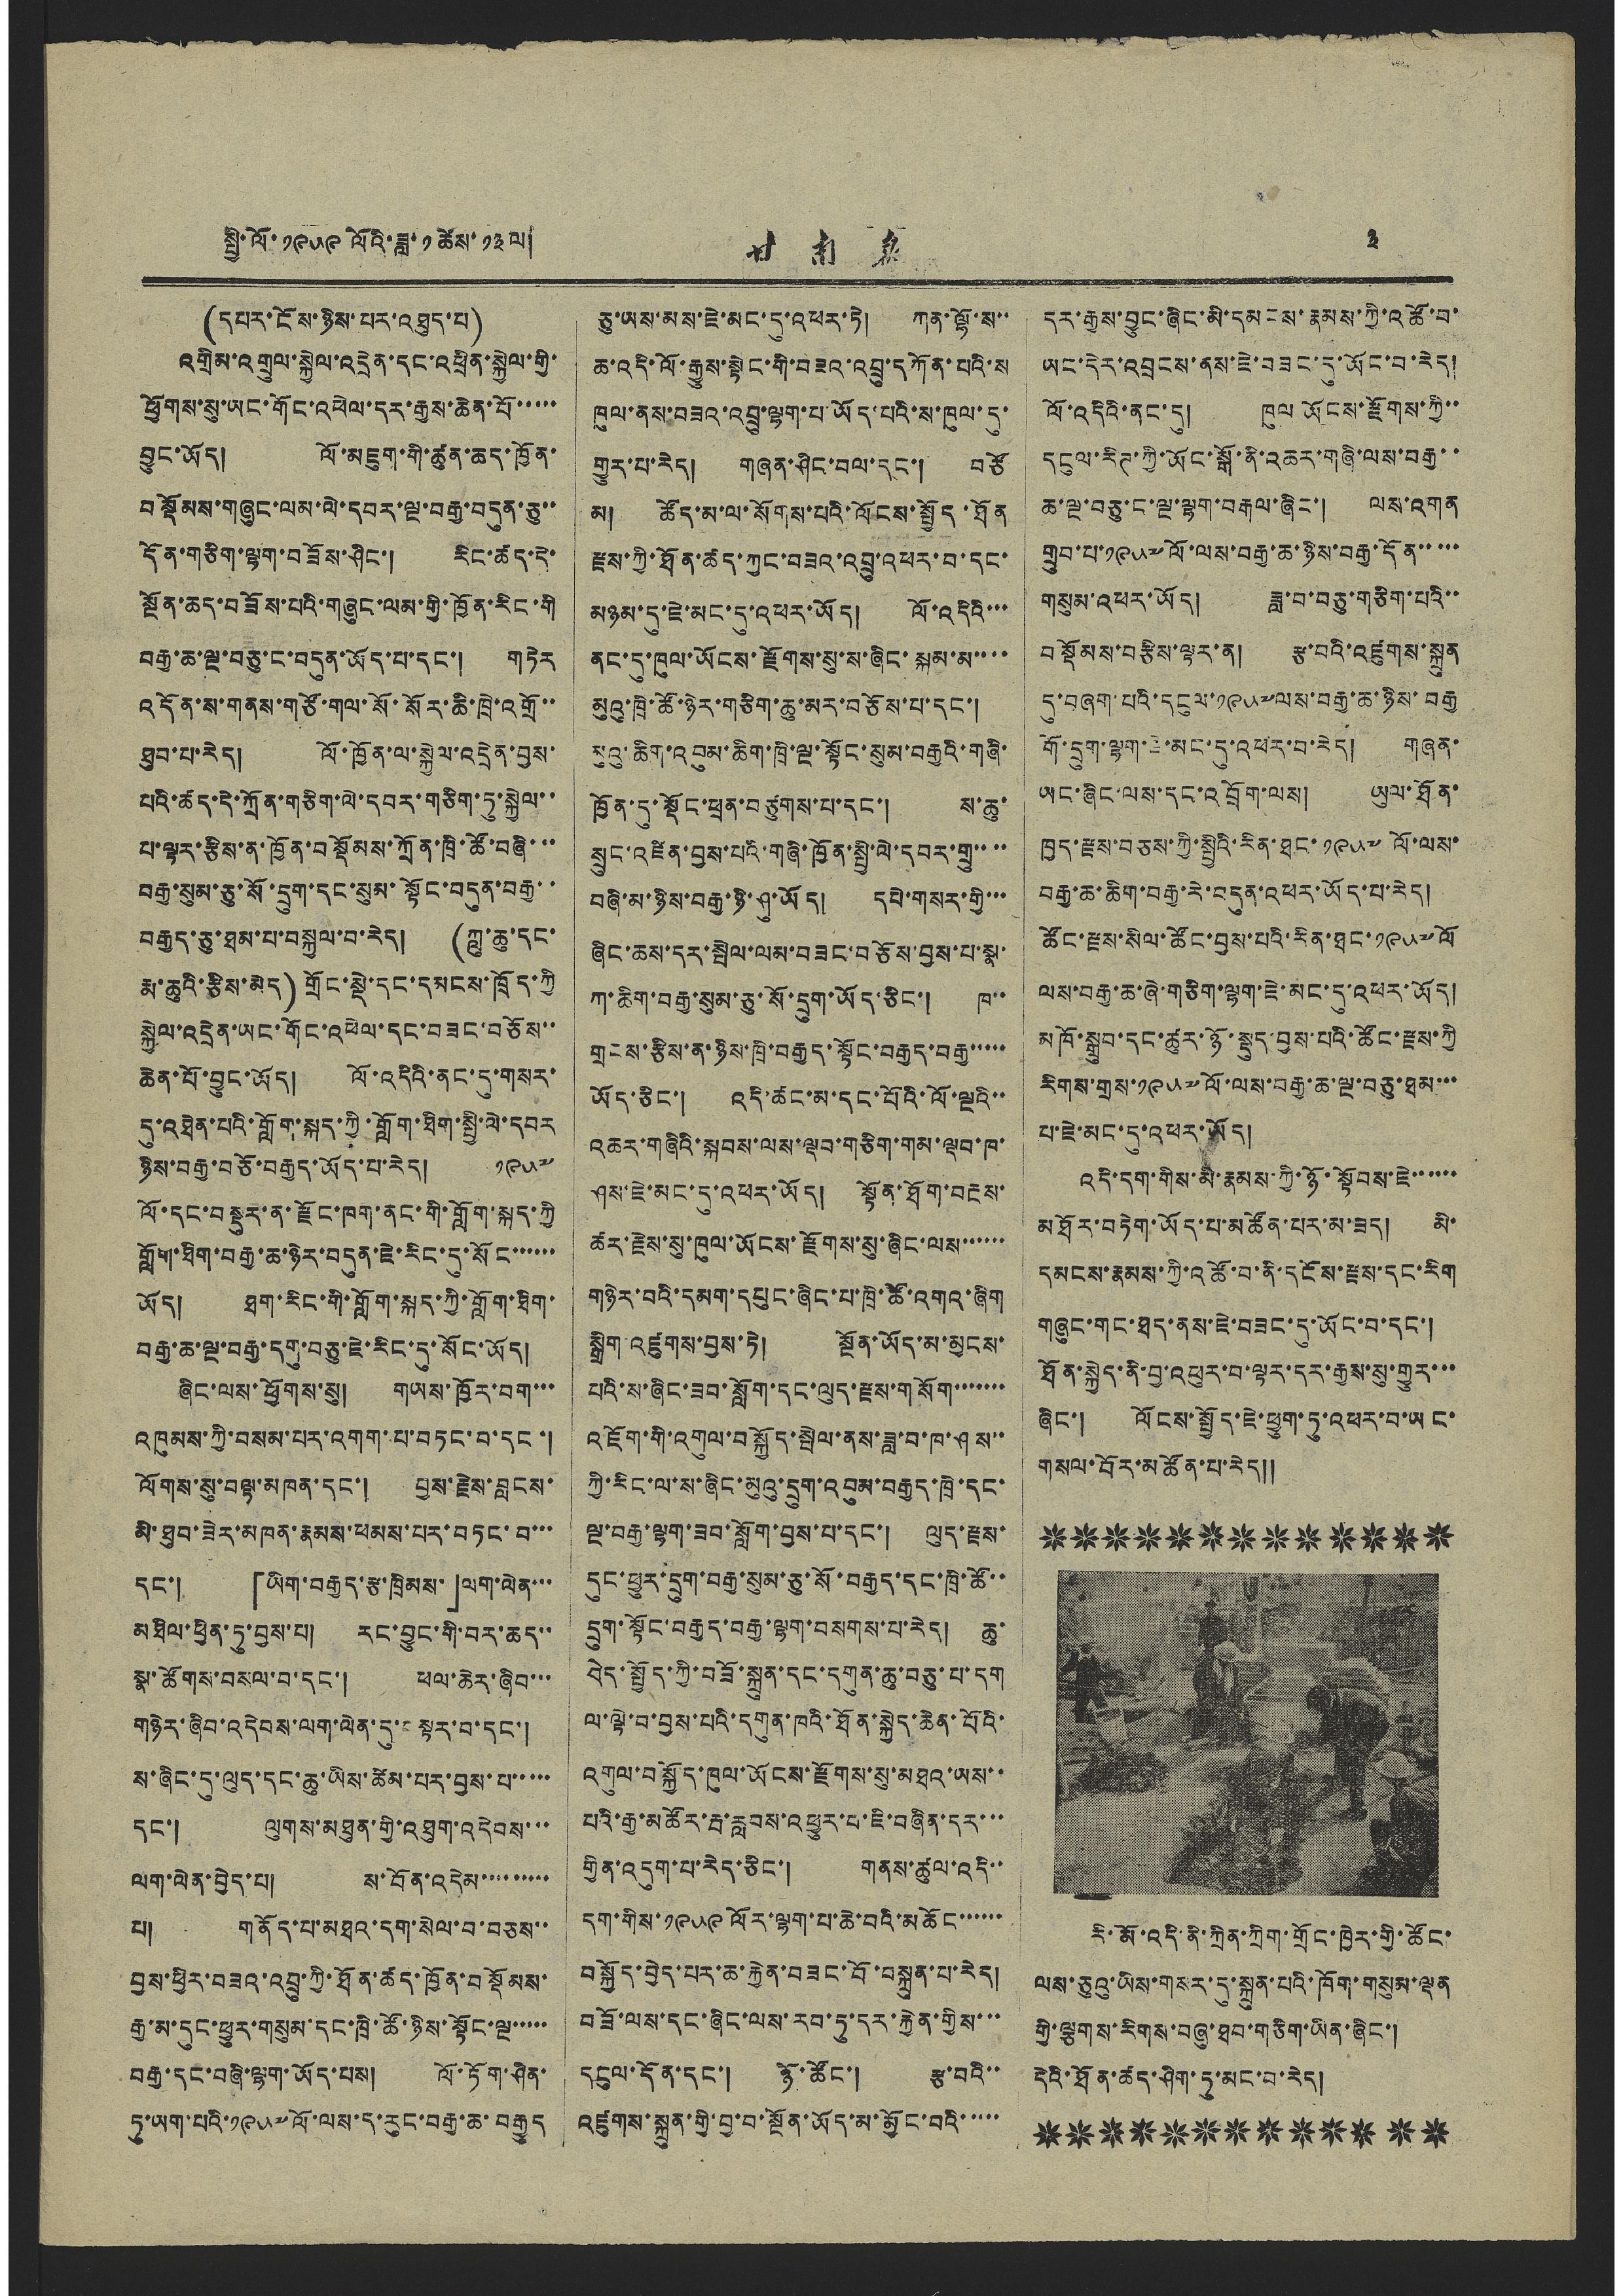སྤྱི་ལོ་ ༡༩༥༩ ལོའི་ཟླ་ ༡ ཚེས་ ༡༣ ལ། 甘 南 報 ༣
(དཔར་ངོས་ཉིས་པར་འཐུད་པ)
འགྲིམ་འགྲུལ་སྐྱེལ་འདྲེན་དང་འཕྲིན་སྐྱེལ་གྱི་
ཕྱོགས་སུ་ཡང་གོང་འཕེལ་དར་རྒྱས་ཆེན་པོ་་་་་
བྱུང་ཡོད། ལོ་མཇུག་གི་ཚུན་ཆད་ཁྱོན་
བསྡོམས་གཞུང་ལམ་ལེ་དབར་ལྔ་བརྒྱ་བདུན་ཅུ་་
དོན་གཅིག་ལྷག་བཟོས་ཤིང་། རིང་ཚད་དེ་
སྔོན་ཆད་བཟོས་པའི་གཞུང་ལམ་གྱི་ཁྱོན་རིང་གི
བརྒྱ་ཆ་ལྔ་བཅུ་ང་བདུན་ཡོད་པ་དང་། གཏེར
འདོན་ས་གནས་གཙོ་གལ་སོ་སོར་ཆི་ཁྲེ་འགྲོ་་
ཐུབ་པ་རེད། ལོ་ཁྱོན་ལ་སྐྱེལ་འདྲེན་བྱས་
པའི་ཚད་དེ་ཀྲོན་གཅིག་ལེ་དབར་གཅིག་ཏུ་སྐྱེལ་་
པ་ལྟར་རྩིས་ན་ཁྱོན་བསྡོམས་ཀྲོན་ཁྲི་ཚོ་བཞི་་་
བརྒྱ་སུམ་ཅུ་སོ་དྲུག་དང་སུམ་སྟོང་བདུན་བརྒྱ་་
བརྒྱད་ཅུ་ཐམ་པ་བསྐྱལ་བ་རེད། (ཀླུ་ཆུ་དང་
རྨ་ཆུའི་རྩིས་མེད) གྲོང་སྡེ་དང་དམངས་ཁྲོད་ཀྱི
སྐྱེལ་འདྲེན་ཡང་གོང་འཕེལ་དང་བཟང་བཅོས་་
ཆེན་པོ་བྱུང་ཡོད། ལོ་འདིའི་ནང་དུ་གསར་
དུ་འཐེན་པའི་གློག་སྐད་ཀྱི་གློག་ཐིག་སྤྱི་ལེ་དབར
ཉིས་བརྒྱ་བཅོ་བརྒྱད་ཡོད་པ་རེད། ༡༩༥༧
ལོ་དང་བསྡུར་ན་རྫོང་ཁག་ནང་གི་གློག་སྐད་ཀྱི
གློག་ཐིག་བརྒྱ་ཆ་ཉེར་བདུན་ཇེ་རིང་དུ་སོང་་་་་་
ཡོད། ཐག་རིང་གི་གློག་སྐད་ཀྱི་གློག་ཐིག་
བརྒྱ་ཆ་ལྔ་བརྒྱ་དགུ་བཅུ་ཇེ་རིང་དུ་སོང་ཡོད།
ཞིང་ལས་ཕྱོགས་སུ། གཡས་ཁྱོར་བག་་་
འཁུམས་ཀྱི་བསམ་པར་འགག་པ་བཏང་བ་དང་།
ལོགས་སུ་བལྟ་མཁན་དང་། བྱས་རྗེས་བླངས་
མི་ཐུབ་ཟེར་མཁན་རྣམས་ཕམས་པར་བཏང་བ་་་
དང་། 「ཡིག་བརྒྱད་རྩ་ཁྲིམས་」ལག་ལེན་་་
མཐིལ་ཕྱིན་ཏུ་བྱས་པ། རང་བྱུང་གི་བར་ཆད་་
སྣ་ཚོགས་བསལ་བ་དང་། ཕལ་ཆེར་ཞིབ་་་
གཉེར་ཞིབ་འདེབས་ལག་ལེན་དུ་བསྟར་བ་དང་།
ས་ཞིང་དུ་ལུད་དང་ཆུ་ཡིས་ཚེམ་པར་བྱས་པ་་་་་
དང་། ལུགས་མཐུན་གྱི་འཐུག་འདེབས་་་
ལག་ལེན་བྱེད་པ། ས་བོན་འདེམ་་་་་་་་་
པ། གནོད་པ་མཐའ་དག་སེལ་བ་བཅས་་
བྱས་ཕྱིར་བཟའ་འབྲུ་ཀྱི་ཐོན་ཚད་ཁྱོན་བསྡོམས་
རྒྱ་མ་དུང་ཕྱུར་གསུམ་དང་ཁྲི་ཚོ་ཉིས་སྟོང་ལྔ་་་་་
བརྒྱ་དང་བཞི་ལྷག་ཡོད་པས། ལོ་ཏོག་ཤིན་
ཏུ་ཡག་པའི་ ༡༩༥༧ ལོ་ལས་ད་རུང་བརྒྱ་ཆ་བརྒྱུད
ཅུ་ཡས་མས་ཇེ་མང་དུ་འཕར་ཏེ། ཀན་ལྷོ་ས་་
ཆ་འདི་ལོ་རྒྱུས་སྟེང་གི་བཟའ་འབྲུ་དཀོན་པའི་ས
ཁུལ་ནས་བཟའ་འབྲུ་ལྷག་པ་ཡོད་པའི་ས་ཁུལ་དུ་
གྱུར་པ་རེད། གཞན་ཤིང་བལ་དང་། བཙོ་
མ། ཚོད་མ་ལ་སོགས་པའི་ལོངས་སྤྱོད་ཐོན
རྫས་ཀྱི་ཐོན་ཚད་ཀྱང་བཟའ་འབྲུ་འཕར་བ་དང་
མཉམ་དུ་ཇེ་མང་དུ་འཕར་ཡོད། ལོ་འདིའི་་་
ནང་དུ་ཁུལ་ཡོངས་རྫོགས་སུ་ས་ཞིང་སྐམ་མ་་་་
མུའུ་ཁྲི་ཚོ་ཉེར་གཅིག་ཆུ་མར་བཅོས་པ་དང་།
མུའུ་ཆིག་འབུམ་ཆིག་ཁྲི་ལྔ་སྟོང་སུམ་བརྒྱའི་གཞི་
ཁྱོན་དུ་སྡོང་ཕྲན་བཙུགས་པ་དང་། ས་ཆུ་
སྲུང་འཛིན་བྱས་པའི་གཞི་ཁྱོན་སྤྱི་ལེ་དབར་གྲུ་་་་
བཞི་མ་ཉིས་བརྒྱ་ཉི་ཤུ་ཡོད། དཔེ་གསར་གྱི་་་
ཞིང་ཆས་དར་སྤེལ་ལམ་བཟང་བཅོས་བྱས་པ་སྣ་
ཀ་ཆིག་བརྒྱ་སུམ་ཅུ་སོ་དྲུག་ཡོད་ཅིང་། ཁ་་
གྲངས་རྩིས་ན་ཉིས་ཁྲི་བརྒྱད་སྟོང་བརྒྱད་བརྒྱ་་་་་
ཡོད་ཅིང་། འདི་ཚང་མ་དང་པོའི་ལོ་ལྔའི་་
འཆར་གཞིའི་སྐབས་ལས་ལྡབ་གཅིག་གམ་ལྡབ་ཁ་
ཤས་ཇེ་མང་དུ་འཕར་ཡོད། སྟོན་ཐོག་བརྔས་
ཚར་རྗེས་སུ་ཁུལ་ཡོངས་རྫོགས་སུ་ཞིང་ལས་་་་་་
གཉེར་བའི་དམག་དཔུང་ཞིང་པ་ཁྲི་ཚོ་འགའ་ཞིག
སྒྲིག འཛུགས་བྱས་ཏེ། སྔོན་ཡོད་མ་མྱངས་
པའི་ས་ཞིང་ཟབ་སློག་དང་ལུད་རྫས་གསོག་་་་་་་
འཇོག་གི་འགུལ་བསྐྱོད་སྤེལ་ནས་ཟླ་བ་ཁ་ཤས་་
ཀྱི་རིང་ལ་ས་ཞིང་མུའུ་དྲུག་འབུམ་བརྒྱད་ཁྲི་དང་
ལྔ་བརྒྱ་ལྷག་ཟབ་སློག་བྱས་པ་དང་། ལུད་རྫས་
དུང་ཕྱུར་དྲུག་བརྒྱ་སུམ་ཅུ་སོ་བརྒྱད་དང་ཁྲི་ཚོ་་
དྲུག་སྟོང་བརྒྱད་བརྒྱ་ལྷག་བསགས་པ་རེད། ཆུ་
བེད་སྤྱོད་ཀྱི་བཟོ་སྐྲུན་དང་དགུན་ཆུ་བཅུ་པ་དག
ལ་ལྟེ་བ་བྱས་པའི་དགུན་ཁའི་ཐོན་སྐྱེད་ཆེན་པོའི་
འགུལ་བསྐྱོད་ཁུལ་ཡོངས་རྫོགས་སུ་མཐའ་ཡས་་
པའི་རྒྱ་མཚོར་རྦ་རླབས་འཕྱུར་བ་ཇི་བཞིན་དར་་་
གྱིན་འདུག་པ་རེད་ཅིང་། གནས་ཚུལ་འདི་་
དག་གིས་ ༡༩༥༩ ལོར་ལྷག་པ་ཆེ་བའི་མཆོང་་་་་་
བསྐྱོད་བྱེད་པར་ཆ་རྐྱེན་བཟང་བོ་བསྐྲུན་པ་རེད།
བཟོ་ལས་དང་ཞིང་ལས་རབ་ཏུ་དར་རྐྱེན་གྱིས་་་
དངུལ་དོན་དང་། ཉོ་ཚོང་། རྩ་བའི་་
འཛུགས་སྐྲུན་གྱི་བྱ་བ་སྔོན་ཡོད་མ་མྱོང་བའི་་་་་
དར་རྒྱས་བྱུང་ཞིང་མི་དམངས་རྣམས་ཀྱི་འཚོ་བ་
ཡང་དེར་འབྲངས་ནས་ཇེ་བཟང་དུ་ཡོང་བ་རེད།
ལོ་འདིའི་ནང་དུ། ཁུལ་ཡོངས་རྫོགས་ཀྱི་་
དངུལ་རིཊ་ཀྱི་ཡོང་སྒོ་ནི་འཆར་གཞི་ལས་བརྒྱ་་
ཆ་ལྔ་བཅུ་ང་ལྔ་ལྷག་བརྒལ་ཞིང་། ལས་འགན
གྲུབ་པ་ ༡༩༥༧ ལོ་ལས་བརྒྱ་ཆ་ཉིས་བརྒྱ་དོན་་་་་
གསུམ་འཕར་ཡོད། ཟླ་བ་བཅུ་གཅིག་པའི་་
བསྡོམས་བརྩིས་ལྟར་ན། རྩ་བའི་འཛུགས་སྐྲུན
དུ་བཞག་པའི་དངུལ་ ༡༩༥༧ ལས་བརྒྱ་ཆ་ཉིས་བརྒྱ
གོ་དྲུག་ལྷག་ཇེ་མང་དུ་འཕར་བ་རེད། གཞན་
ཡང་ཞིང་ལས་དང་འབྲོག་ལས། ཡུལ་ཐོན་
ཁྱད་རྫས་བཅས་ཀྱི་སྤྱིའི་རིན་ཐང་ ༡༩༥༧ ལོ་ལས་
བརྒྱ་ཆ་ཆིག་བརྒྱ་རེ་བདུན་འཕར་ཡོད་པ་རེད།
ཚོང་རྫས་སིལ་ཚོང་བྱས་པའི་རིན་ཐང་ ༡༩༥༧ ལོ
ལས་བརྒྱ་ཆ་ཞེ་གཅིག་ལྷག་ཇེ་མང་དུ་འཕར་ཡོད།
མཁོ་སྒྲུབ་དང་ཚུར་ཉོ་སྡུད་བྱས་པའི་ཚོང་རྫས་ཀྱི
རིགས་གྲས་ ༡༩༥༧ ལོ་ལས་བརྒྱ་ཆ་ལྔ་བཅུ་ཐམ་་་
པ་ཇེ་མང་དུ་འཕར་ཡོད།
འདི་དག་གིས་མི་རྣམས་ཀྱི་ཉོ་སྟོབས་ཇེ་་་་་་
མཐོར་བཏེག་ཡོད་པ་མཚོན་པར་མ་ཟད། མི་
དམངས་རྣམས་ཀྱི་འཚོ་བ་ནི་དངོས་རྫས་དང་རིག
གཞུང་གང་ཐད་ནས་ཇེ་བཟང་དུ་ཡོང་བ་དང་།
ཐོན་སྐྱེད་ནི་བྱ་འཕུར་བ་ལྟར་དར་རྒྱས་སུ་གྱུར་་་
ཞིང་། ལོངས་སྤྱོད་ཇེ་ཕྱུག་ཏུ་འཕར་བ་ཡང་
གསལ་བོར་མཚོན་པ་རེད༎
རི་མོ་འདི་ནི་ཀྲིན་ཀྲིག་གྲོང་ཁྱེར་གྱི་ཚོང་
ལས་ཅུའུ་ཡིས་གསར་དུ་སྐྲུན་པའི་ཁོག་གསུམ་ལྡན
གྱི་ལྕགས་རིགས་བཞུ་ཐབ་གཅིག་ཡིན་ཞིང་།
དེའི་ཐོན་ཚད་ཤིག་ཏུ་མང་བ་རེད།
